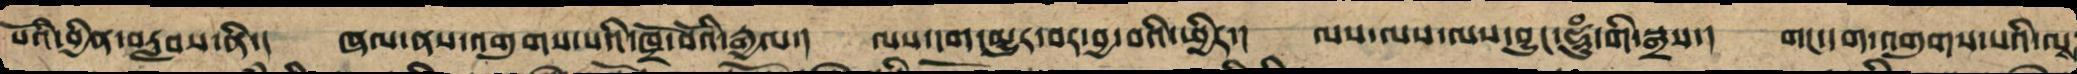པོའི་བྱིན་བརླབས་ནི་། ཞལ་ནས་འགུགས་པའི་ཁྲོ་བོའི་རྒྱལ་། ལས་དག་མྱུར་བར་བྱ་བའི་ཕྱིར་། ལས་ལས་ལས་བྱུང་ཧཱུྃ་གི་སྒྲས་། གང་དག་འགུགས་པའི་ལས
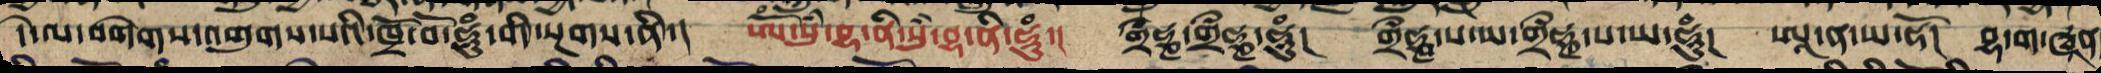དེ་ལ་བགེགས་འགུགས་པའི་ཁྲོ་བོ་ཧཱུྃ་གི་སྔགས་ནི་། ཨོཾ་སུཾ་བྷ་ནི་སུཾ་བྷ་ནི་ཧཱུཾ་། གྲྀཧྞ་གྲྀཧྞ་ཧཱུྃ། གྲྀཧྞཱ་པ་ཡ་གྲྀཧྞཱ་པ་ཡ་ཧཱུྃ། ཨཱ་ན་ཡ་ཧོ། བྷ་ག་ཝན
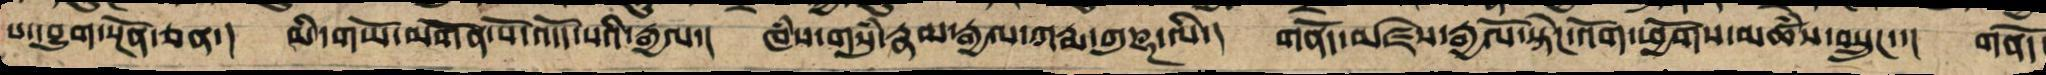པ་དབྱུག་སྔོན་ཅན་། མི་གཡོ་མགོན་པོ་འདོད་པའི་རྒྱལ་། ཁཾས་གསུཾ་རྣམ་རྒྱལ་ཀརྨ་ཀུཎྜ་ལི་། གནོད་མཛེས་རྒྱལོ་སྟེང་འོག་ཕྱོགས་མཚཾས་བསྲུང་་། གནོད་
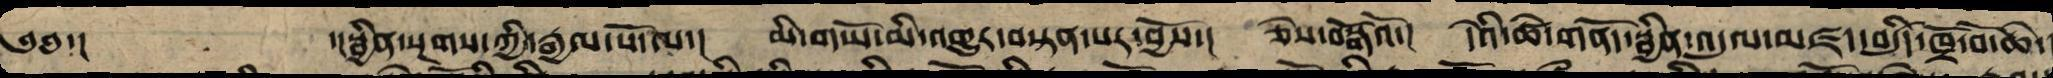༄༅་། ་།སྦྱིན་སྔགས་ཀྱི་རྒྱལ་པོ་ལ་། མི་གཡོ་མི་འགྱུར་བསྟན་པར་བྱོས་། ཞེས་བསྒོའོ་། དེའི་ཚེ་གནོད་སྦྱིན་འདུལ་མཛད་བདུད་རྩི་ཁྲོ་བོ་ཆེ་
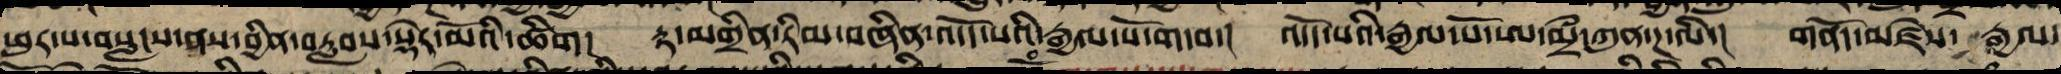ཕུར་པ་བསླངས་ནས་བྱིན་བརླབས་སྡེར་མོའི་ཚིག། རྟ་མགྲིན་རིམ་བཞིན་འདོད་པའི་རྒྱལ་པོ་གདབ་། འདོད་པའི་རྒྱལ་པོ་ཨ་མྲྀ་ཀུཎྜ་ལི་། གནོད་མཛེས་རྒྱལ་
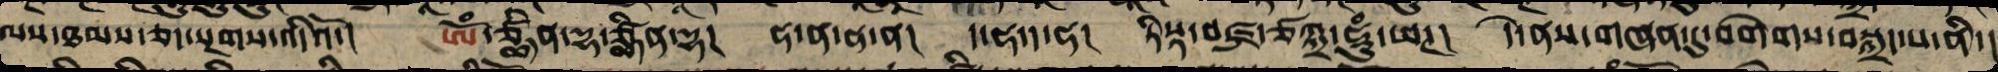ལས་ཐམས་ཅད་པའི་སྔགས་འདིའོ་། ཨོཾ་ཙྪིནྡ་ཙྪིནྡ་དྷ། ཧ་ན་ཧ་ན། ད་ཧ་ད་ཧ། དིསྟ་བཛྲ་ཙཀཀྵྲ་ཧཱུྃ་ཕཊ། དེ་ནས་གཞན་དུ་བགེགས་བསྐྲད་པ་ནི་།
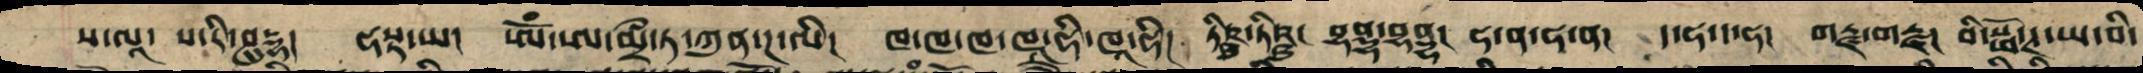ས་ལཱ། པ་རི་ཤུདྡྷ། ཧསྟཱ་ཡ། ཨོཾ་ཨ་མྲྀ་ཏ་ཀུཎྜ་ལི། ཁ་ཁ་ཁ་ཁཱ་ཧི་ཁཱ་ཧི། ཧུ་ལུ་ཧུ་ལུ། ཏིཥྛ་ཏིཥྛ། བྷནྡྷ་བྷནྡྷ། ཧ་ན་ཧ་ན། ད་ཧ་ད་ཧ། པ་ཙ་པ་ཙ། གརྫ་གརྫ། བི་སྥོ་ཊ་ཡ་བི་
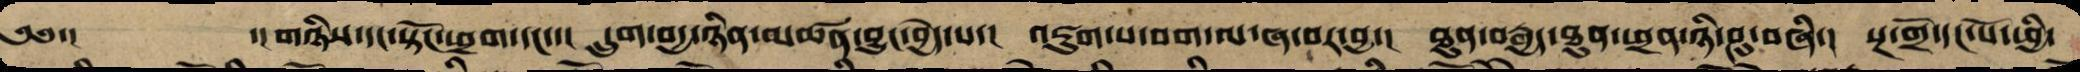༄༅་།      ་། གཉིས་དང་སྟོང་ཕྲག་དང་།  དྲུག་བདྱ་ཉིན་མཚན་བྱུང་བྱེད་པ་། འཇུག་པ་བག་ལ་ཞ་བར་བྱ་། ཐུན་བརྒྱད་ཐུན་ཕྲན་ཉི་ཤུ་བཞི་། སྔ་གྲོ་དང་པོ་ཕྱི་
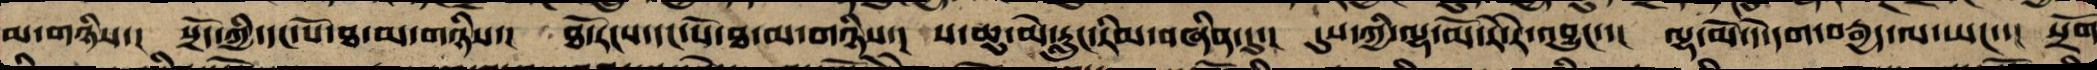མ་གཉིས་།  སྲོད་ཀྱི་དང་པོ་ཐ་མ་གཉིས་། ཐོ་རངས་དང་པོ་ཐ་མ་གཉིས་། ས་ཆུ་མེ་རླུང་རིམ་བཞིན་དུ་། དུས་ཀྱི་ལྷ་མོ་རེ་རེ་འབྱུང་་། ལྷ་མོ་དེ་དག་བརྒྱད་ལ་ཡང་་། སྲོག
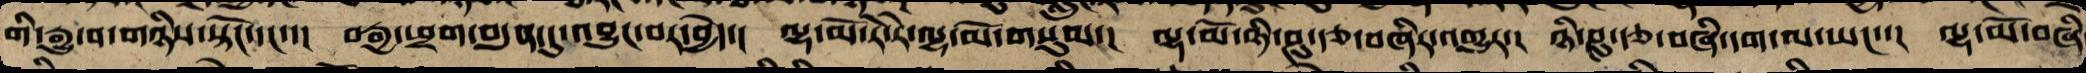གི་རྒྱུ་བ་ཉིས་སྟོང་དང་་། བརྒྱ་ཕྲག་བདུན་དུ་འབྱུང་བར་བྱེད་། ལྷ་མོ་རེ་རེར་ལྷ་མོ་གསུམ་། ལྷ་མོ་ཉི་ཤུ་རྩ་བཞིར་འགྱུར་། ཉི་ཤུ་རྩ་བཞི་དག་ལ་ཡང་་། ལྷ་མོ་བཞི
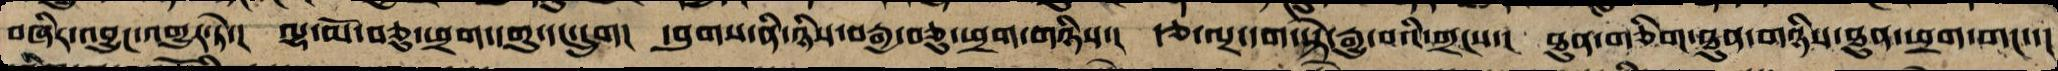བཞིར་འབྱུང་འགྱུར་ཏེ་། ལྷ་མོ་བཅུ་ཕྲག་དགུ་དང་དྲུག། དབུགས་ནི་ཉིས་བརྒྱ་བཅུ་ཕྲག་གཉིས་། རྩ་ལྔ་དག་སྟེ་རྒྱུ་བའི་གྲངས་། ཐུན་གཅིག་ཐུན་གཉིས་ཐུན་ཕྲག་གང་་།
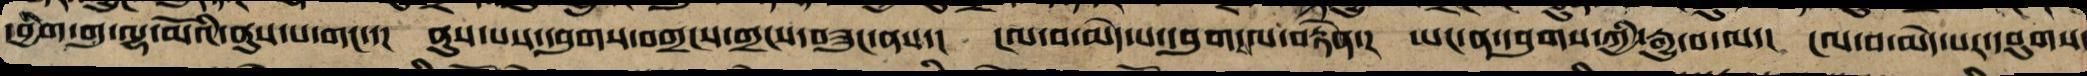དབྱིག་གུ་ལྷ་མོའི་ནུས་པ་གང་་། ནུས་པས་དབུགས་བགྲངས་གྲངས་བཟུང་ནས་། ངལ་བ་མེད་པ་དབུག་ལ་བརྟེན་། ཡང་ན་དབུགས་ཀྱི་རྒྱུ་བ་ལ་། ངལ་བ་མེད་པར་དབུགས་
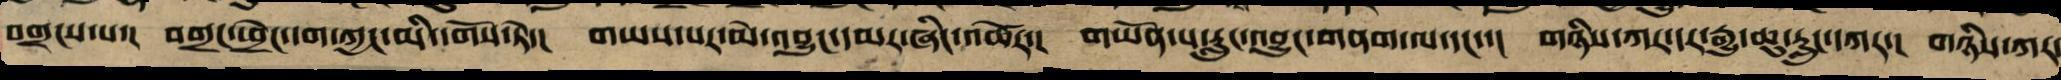བགྲངས་པ་། བགྲང་ཕྲེང་དག་ཀྱང་མི་དགོས་ཏེ་། གཡས་པར་མེ་འབྱུང་དམར་ཞིང་འཚེར་། གཡོན་པ་རླུང་འབྱུང་གནག་ལ་དང་་། གཉིས་ཀར་དར་རྒྱུ་ཆུ་རླུང་དཀར་། གཉིས་ཀར་
